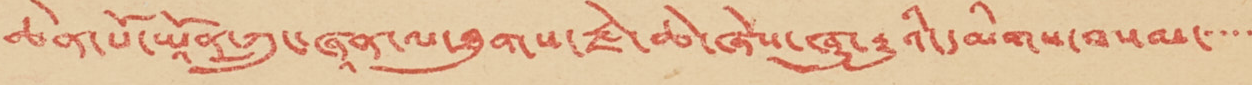ཆེན་པོ་ཡཱོན་ཀྲུང་ཞཱན་ལ་ཐུགས་རྗེ་ཆེ་ཞེས་ཞུ་རྒྱུའི་དམིགས་བསམ་་་་་
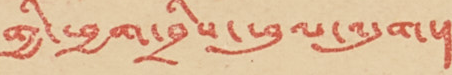གྱི་ཕྱག་བྲིས་ཕུལ་འདུག་།
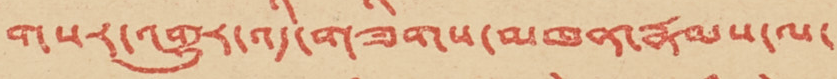གསར་འགྱུར་འདི་གཟིགས་མཁན་རྣམས་ལ་
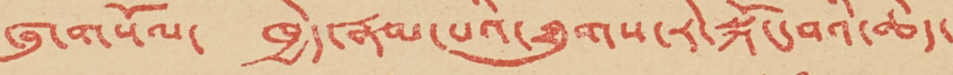ཞུ་གསོལ་ ཁྱེད་རྣམ་པའི་ཐུགས་རེ་སྐོང་བའི་ཆེད་
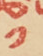༡
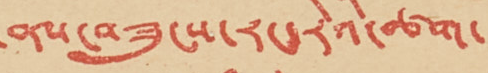ནས་བཟུངས་རང་རེའི་ཚག་
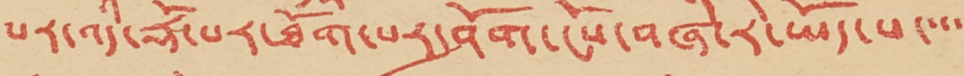པར་འདི་རྡོ་པར་ཐོག་པར་ཤོག་ངོས་བཞི་རེ་ཡོད་པ་་་་
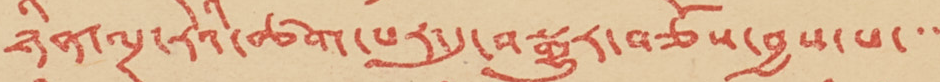ཉིན་ལྔ་རེའི་ཚག་པར་དུ་བསྒྱུར་བཅོས་བྱས་པ་་་
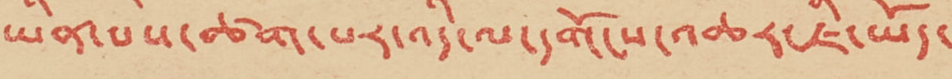ཡིན་པས་ཚག་པར་འདི་ལ་དགོངས་འཆར་ཇི་ཡོད་
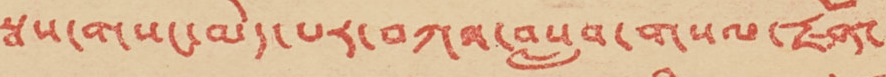སྦས་གསང་མེད་པར་བཀའ་བསླབ་གསལ་རྗོན་
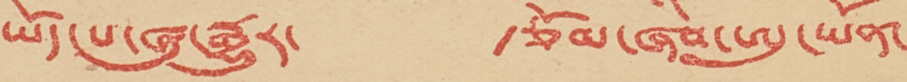ཡོད་པ་ཞུ་རྒྱུར་ རྩོམ་ཞིབ་ཨུ་ཡོན་
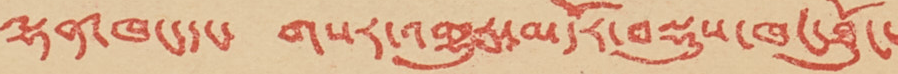ལྷན་ཁང་དང་ གསར་འགྱུར་མདོར་བསྡུས་ཁང་ཐོུང་
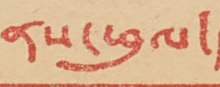ནས་ཕུལ་།
